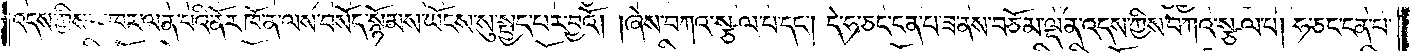འདས་ཀྱིས་མཁར་ལན་པའི་ནོར་ཁོ་ན་ལས་བསོད་སྙོམས་ཡོངས་སུ་སྤྱད་པར་བྱའོ། །ཞེས་བཀའ་སྩལ་པ་དང༌། དེ་ཧ་ཅང་ངན་པ་ཟ་ནས་བཅོམ་ལྡན་འདས་ཀྱིས་བཀའ་སྩལ་པ། ཧ་ཅང་ངན་པ་
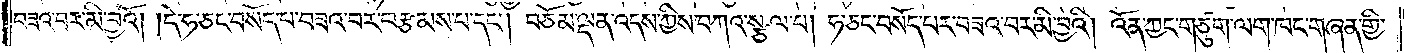བཟའ་བར་མི་བྱའོ། །དེ་ཧ་ཅང་བསོད་པ་བཟའ་བར་བརྩམས་པ་དང༌། བཅོམ་ལྡན་འདས་ཀྱིས་བཀའ་སྩལ་པ། ཧ་ཅང་བསོད་པར་བཟའ་བར་མི་བྱའོ། འོན་ཀྱང་གཙུག་ལག་ཁང་གཞན་གྱི་
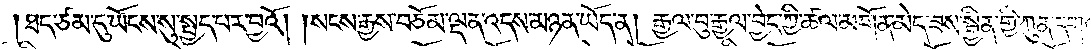ཐད་ཙམ་དུ་ཡོངས་སུ་སྤྱད་པར་བྱའོ། །སངས་རྒྱས་བཅོམ་ལྡན་འདས་མཉན་ཡོད་ན། རྒྱལ་བུ་རྒྱལ་བྱེད་ཀྱི་ཆལ་མགོན་མེད་ཟས་སྦྱིན་གྱི་ཀུན་དགའ་
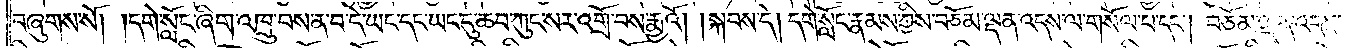བཞུགས་སོ། །དགེ་སློང་ཞིག་འཁྲུ་བས་ན་བ་དེ་ཡང་དང་ཡང་དུ་ཆབ་ཀུང་སར་འགྲོ་བས་རྨྱའོ། །སྐབས་དེ། དགེ་སློང་རྣམས་ཀྱི་བཅོམ་ལྡན་འདས་ལ་གསོལ་པ་དང༌། བཅོམ་ལྡན་འདས་
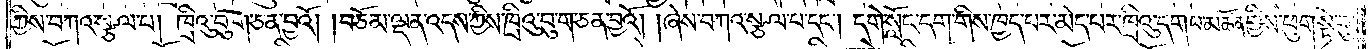ཀྱིས་བཀའ་སྩལ་པ། ཁྲིའུ་བུ་ག་ཅན་བྱའོ། །བཅོམ་ལྡན་འདས་ཀྱིས་ཁྲིའུ་བུ་ག་ཅན་བྱའོ། །ཞེས་བཀའ་སྩལ་པ་དང༌། དགེ་སློང་དག་གིས་ཁྱད་པར་མེད་པ་ཁྲིའུ་དག་ལ་མཚོན་གྱིས་ཕུག་སྟེ་བུ་
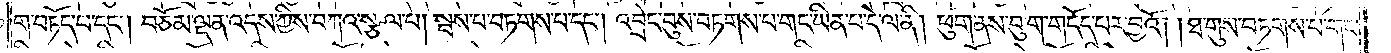ག་བཏོད་པ་དང༌། བཅོམ་ལྡན་འདས་ཀྱིས་བཀའ་སྩལ་པ། སྦས་པ་བཏགས་པ་དང༌། འབྲེང་བུས་བཏགས་པ་གང་ཡིན་པ་དེ་ལ་ནི། ཕུག་ནས་བུག་གདོད་པར་བྱའོ། །ཐ་གུས་བཏགས་པ་གང་
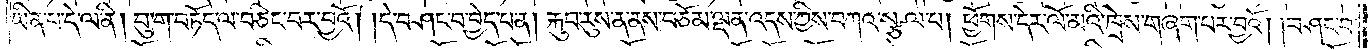ཡིན་པ་དེ་ལ་ནི། བུ་ག་བཏོད་ལ་བཅིང་བར་བྱའོ། །དེ་བཤང་བ་བྱེད་པ་ན། རྐུབ་རུས་ན་ནས་བཅོམ་ལྡན་འདས་ཀྱིས་བཀའ་སྩལ་པ། ཕྱོགས་དེར་ལོ་མའི་ཁྲེས་གཞག་པར་བྱའོ། །བཤང་བ་
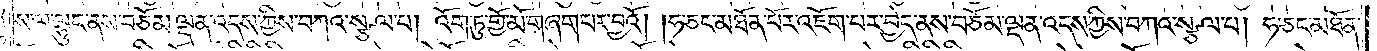ས་ལ་ལྷུང་ནས་བཅོམ་ལྡན་འདས་ཀྱིས་བཀའ་སྩལ་པ། འོག་ཏུ་གྱོ་མོ་གཞག་པར་བྱའོ། །ཧ་ཅང་མཐོན་པོར་འཇོག་པར་བྱེད་ནས་བཅོམ་ལྡན་འདས་ཀྱིས་བཀའ་སྩལ་པ། ཧ་ཅང་མཐོན་
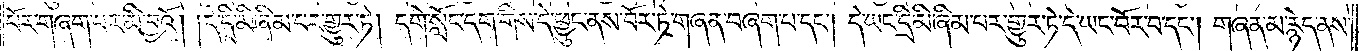པོར་གཞག་པར་མི་བྱའོ། །དེ་དྲི་མི་ཞིམ་པར་གྱུར་ཏེ། དགེ་སློང་དག་གིས་དེ་ཕྱུང་ནས་བོར་ཏེ་གཞན་བཞག་པ་དང༌། དེ་ཡང་དྲི་མི་ཞིམ་པར་གྱུར་ཏེ་དེ་ཡང་བོར་བ་དང༌། གཞན་མ་རྙེད་ནས་
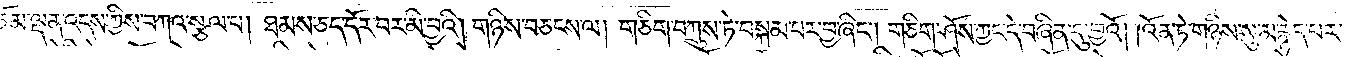བཅོམ་ལྡན་འདས་ཀྱིས་བཀའ་སྩལ་པ། ཐམས་ཅད་དོར་བར་མི་བྱའི། གཉིས་བཅངས་ལ། གཅིག་བཀྲུས་ཏེ་བསྐམ་པར་བྱ་ཞིང༌། གཅིག་ཤོས་ཀྱང་དེ་བཞིན་དུ་བྱའོ། །འོན་ཏེ་གཉིས་སུ་མ་རྙེད་པར་
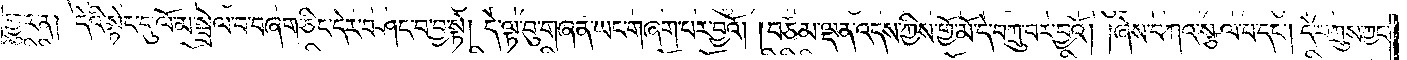གྱུར་ན། དེའི་སྟེང་དུ་ལོ་མ་སྦྲེལ་བ་བཞག་ཅིང་དེར་བཤང་བ་བྱ་སྟེ། དེ་ལྟ་བུ་གཞན་ཡང་གཞག་པར་བྱའོ། །བཅོམ་ལྡན་འདས་ཀྱིས་གྱོ་མོ་དེ་བཀྲུ་བར་བྱའོ། །ཞེས་བཀའ་སྩལ་པ་དང༌། དེ་བཀྲུས་ཀྱང་
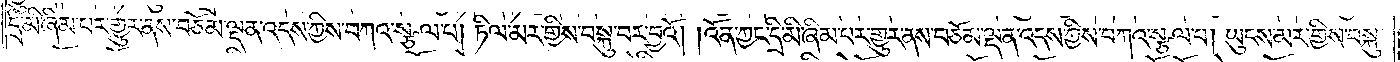དྲི་མི་ཞིམ་པར་གྱུར་ནས་བཅོམ་ལྡན་འདས་ཀྱིས་བཀའ་སྩལ་པ། ཏིལ་མར་གྱིས་བསྐུ་བར་བྱའོ། །འོན་ཀྱང་དྲི་མི་ཞིམ་པར་གྱུར་ནས་བཅོམ་ལྡན་འདས་ཀྱིས་བཀའ་སྩལ་པ། ཡུངས་མར་གྱིས་བསྐུ་
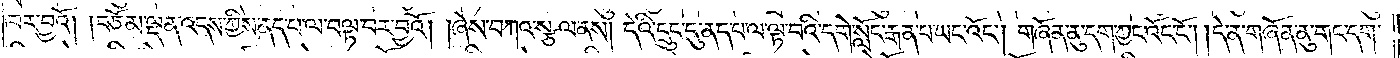བར་བྱའོ། །བཅོམ་ལྡན་འདས་ཀྱིས་ནད་པ་ལ་བལྟ་བར་བྱའོ། །ཞེས་བཀའ་སྩལ་ནས། དེའི་དྲུང་དུ་ནད་པ་ལ་ལྟ་བའི་དགེ་སློང་རྒན་པ་ཡང་འོང༌། གཞོན་ནུ་དག་ཀྱང་འོང་ངོ༌། །དེ་ན་གཞོན་ནུ་གང་དག་
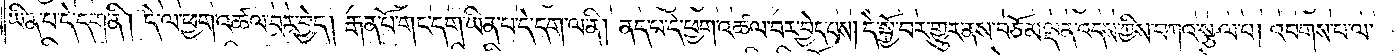ཡིན་པ་དེ་དག་ནི། དེ་ལ་ཕྱག་འཚལ་བར་བྱེད། རྒན་པོ་གང་དག་ཡིན་པ་དེ་དག་ལ་ནི། ནད་པ་དེ་ཕྱག་འཚལ་བར་བྱེད་པས། དེ་སྐྱོ་བར་གྱུར་ནས་བཅོམ་ལྡན་འདས་ཀྱིས་བཀའ་སྩལ་པ། འབགས་པ་ལ་
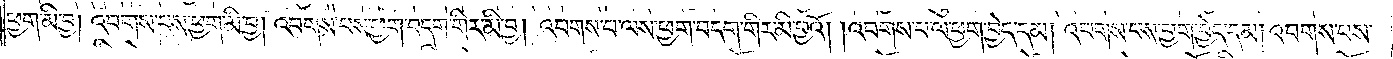ཕྱག་མི་བྱ། འབགས་པས་ཕྱག་མི་བྱ། འབགས་པས་ཕྱག་བདག་གིར་མི་བྱ། འབགས་པ་ལས་ཕྱག་བདག་གིར་མི་བྱའོ། །འབགས་པ་ལ་ཕྱག་བྱེད་དམ། འབགས་པས་ཕྱག་བྱེད་དམ། འབགས་པས་
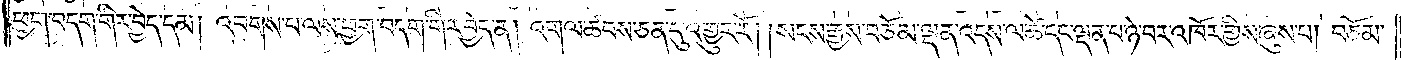ཕྱག་བདག་གིར་བྱེད་དམ། འབགས་པ་ལས་ཕྱག་བདག་གིར་བྱེད་ན། འགལ་ཚབས་ཅན་དུ་འགྱུར་རོ། །སངས་རྒྱས་བཅོམ་ལྡན་འདས་ལ་ཚེ་དང་ལྡན་པ་ཉེ་བར་འཁོར་གྱིས་ཞུས་པ། བཅོམ་
